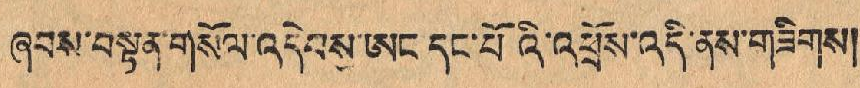ཞབས་བསྟན་གསོལ་འདེབས་ཨང་དང་པོ འི་འཕྲོས་འདི་ནས་གཟིགས།
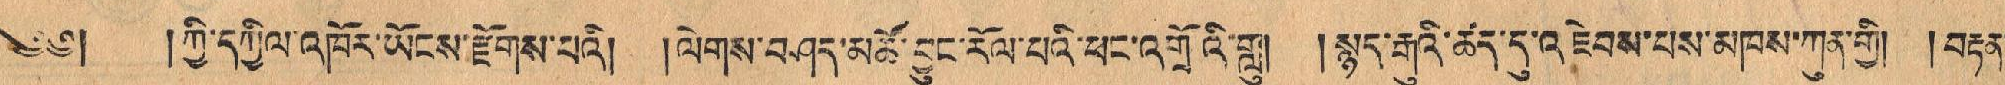༄༅། །ཀྱི་དཀྱིལ་འཁོར་ཡོངས་རྫོགས་པའི། །ལེགས་བཤད་མཚོ་བྱུང་རོལ་པའི་ཕང་འགྲོའི་གླུ། །སྙད་རྒུའི་ཚད་དུ་འཇེབས་པས་མཁས་ཀུན་གྱི། །བརྟན་
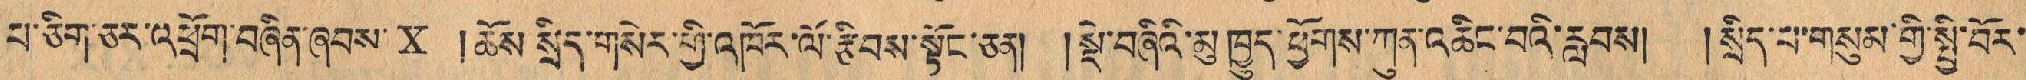པ་ཅིག་ཅར་འཕྲོག་བཞིན་ཞབས་ x །ཆོས་སྲིད་གསེར་གྱི་འཁོར་ལོ་རྩིབས་སྟོང་ཅན། །སྡེ་བཞིའི་མུ ཁྱུད་ཕྱོགས་ཀུན་འཆིང་བའི་རླབས། །སྲིད་པ་གསུམ་གྱི་སྤྱི་བོར་
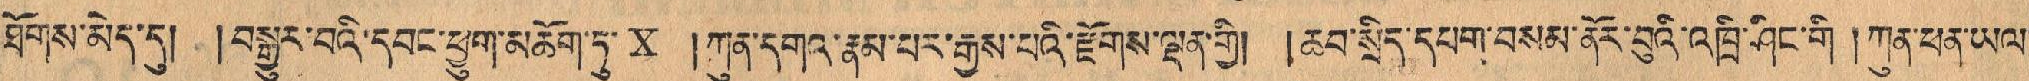ཐོགས་མེད་དུ། །བསྒྱུར་བའི་དབང་ཕྱུག་མཆོག་ཏུ་ x །ཀུན་དགའ་རྣམ་པར་རྒྱས་པའི་རྫོགས་ལྡན་གྱི། །ཆབ་སྲིད་དཔག་བསམ་ནོར་བུའི་འཁྲི་ཤིང་གི །ཀུན་ཕན་ཡལ་
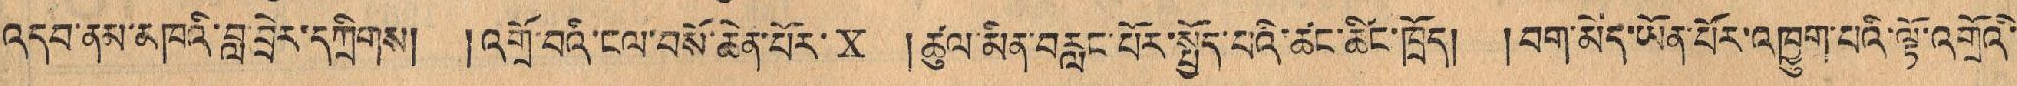འདབ་ནམ་མཁའི་བླ་བྲེར་དཀྲིགས། །འགྲོ་བའི་ངལ་བསོ་ཆེན་པོར་ x །ཚུལ་མིན་བརླང་པོར་སྤྱོད་པའི་ཚང་ཚིང་ཁྲོད། །བག་མེད་ཡོན་པོར་འཁྱུག་པའི་ལྟོ་འགྲོའི་
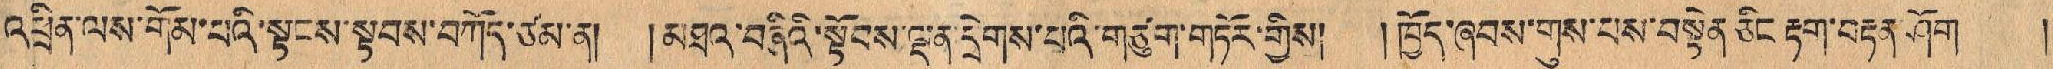འཕྲིན་ལས་གོམ་པའི་སྟངས་སྟབས་བཀོད་ཙམ་ན། །མཐའ་བཞིའི་སྟོབས་ལྡན་དྲེགས་པའི་གཙུག་གཏོར་གྱིས། །ཁྱོད་ཞབས་གུས་པས་བསྟེན་ཅིང་རྟག་བརྟབ་ཤོག །
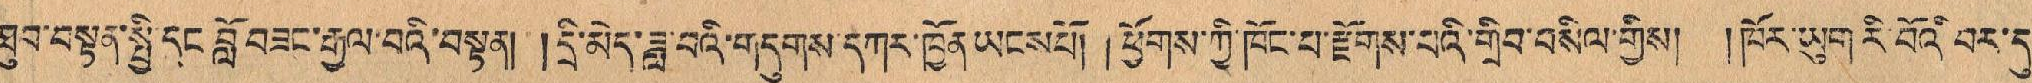ཐུབ་བསྟན་སྤྱི་དང བློ་བཟང་རྒྱལ་བའི་བསྟན། །དྲི་མེད་ཟླ་བའི་གདུགས་དཀར་ཁྱོན་ཡངསཔོ། །ཕྱོགས་ཀྱི་ཁོང་པ་རྫོགས་པའི་གྲིབ་བསིལ་གྱིས། །ཁོར་ཡུག་རི་བོའི བར་དུ་
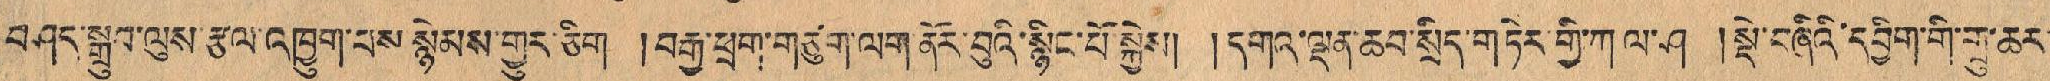བཤད་སྒྲུབ་ལུས་རྩལ་འཁྱུག་པས་སྙེགས་གྱུར་ཅིག །བརྒྱ་ཕྲག་གཙུག་ལག་ནོར་བུའི་སྙིང་པོ སྐྱེས། དགའ་ལྡན་ཆབ་སྲིད་གཏེར་གྱི་ཀ་ལ་ཤ །སྡེ་བཞིའི་དབྱིག་གི་གྱུ་ཆར་
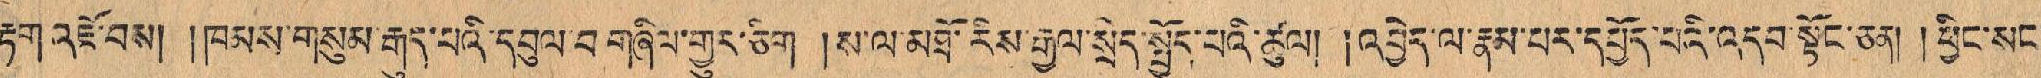རྟག་འཇོ་བས། །ཁམས་གསུམ་རྒུད་པའི་དབུལ་བ་གཞིལ་གྱུར་ཅིག །ས་ལ་མཐོ་རིས་རྒྱས་སྲེད་སྤྱོད་པའི་ཚུལ། །འབྱེད་ལ་རྣམ་པར་དཔྱོད་པའི་འདབ་སྟོང་ཅན། །ཕྱིང་སང་
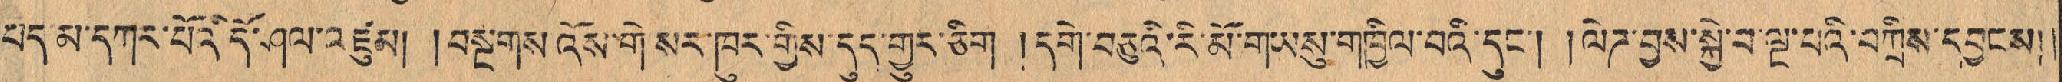པད་མ་དཀར་པོའི་དོ་ཤལ་འཛུམ། །བསྔགས་འོས་གེ་སར་ཁུར་གྱིས་དུད་གྱུར་ཅིག །དགེ་བཅུའི་རི་མོ་གཡསུ་གཁྱིལ་བའི་དུང་། །ལེཊ་བྱས་སྐྱེ་བ་ལྔ་པའི་བཀྲིས་དབྱངས།།
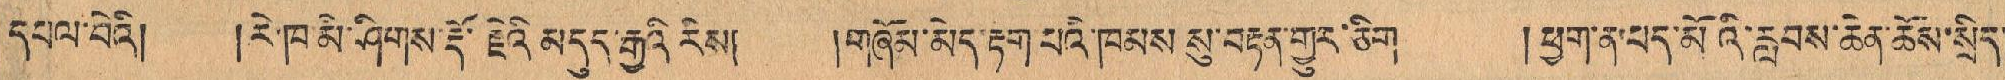དཔལ་བེའི། །རེ་ཁ་མི་ཤོགས་རྡོ་རྗེའི་མདུད་རྒྱའི་རིས། །གཞོམ་མེད་རྟག་པའི་ཁམས་སུ་བརྟན་གྱུར་ཅིག །ཕྱག་ན་པད་མོའི་རླབས་ཆེན་ཆོས་སྲིད་
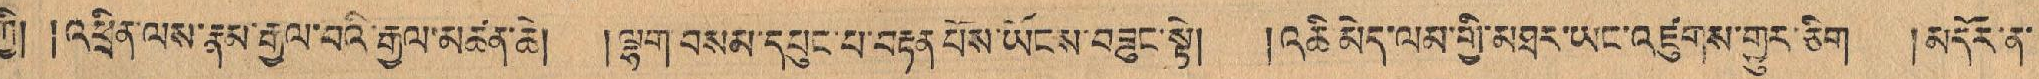ཀྱི། །འཕྲིན་ལས་རྣམ་རྒྱལ་བའི་རྒྱལ་མཚན་ཆེ། །ལྷག་བསམ་དཔུང་པ་བརྟན་པོས་ཡོངས་བཟུང་སྟེ། །འཆི་མེད་ལས་གྱི་མཐར་ཡང་འཛུགས་གྱུར་ཅིག །མདོར་ན་
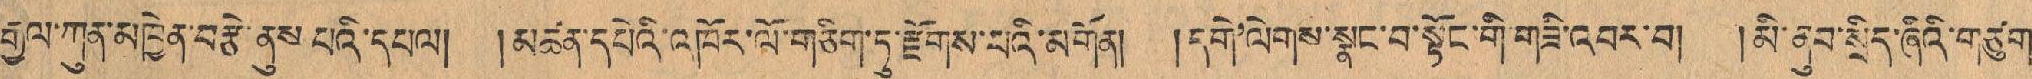རྒྱལ་ཀུན་མཁྱེན་བརྩེ་ནུས་པའི་དཔལ། །མཚན་དཔེའི་འཁོར་ལོ་གཅིག་ཏུ་རྫོགས་པའི་མགོན། །དགེ་ལེགས་སྣང་བ་སྟོང་གི་གཟི་འབར་བ། །མི་ནུས་སྲིད་ཞིའི་གཙུག
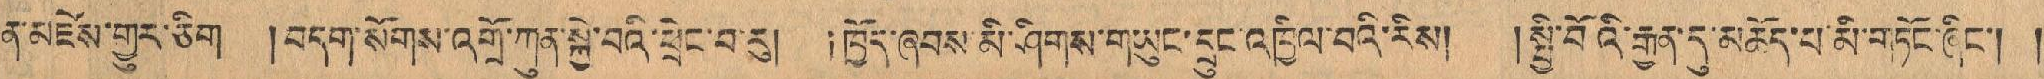ན་མཛེས་གྱུར་ཅིག །བདག་སོགས་འགྲོ་ཀུན་བའི་ཕྲེང་བ་རུ། །ཁྱོད་ཞབས་མི་ཤིགས་གཡུང་དྲུང་འཁྱིལ་བའི་རིས། །སྤྱི་བོའི་རྒྱན་དུ་མཆོད་པ་མི་གཏོང་ཞིང་། །
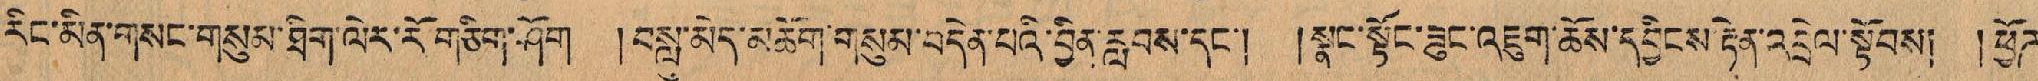རིང་མིན་གསང་གསུམ་ཐེག་ལེར་རོ་གཅིག་ཤོག །བསླུ་མེད་མཆོག་གསུམ་བདེན་པའི་བྱིན་རླབས་དང་། །སྣང་སྟོང་ཟུང་འཇུག་ཆོས་དབྱིངས་རྟེན་འདྲེལ་སྟོབས། །ཕྱོཊ་
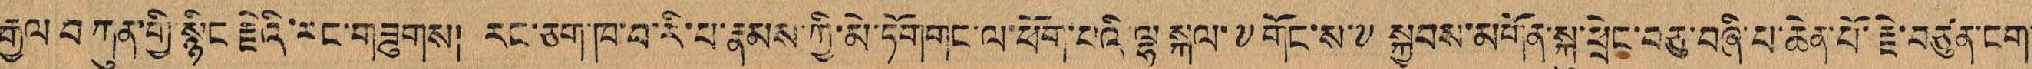རྒྱལ་བ་ཀུན་གྱི་སྙིང་རྗེའི་རང་གཟུགས། །རང་ཅག་ཁ་བ་རི་པ་རྣམས་ཀྱི་མེ་ཏོགགང་ལ་ཕོག་པའི་ལྷ་སྐལ་༸གོང་ས་༸སྐྱབས་མགོན་སྐུ་ཕྲེང་བཅུ་བཞི་པ་ཆེན་པོ་ཇེ་བཙུན་ངག་
